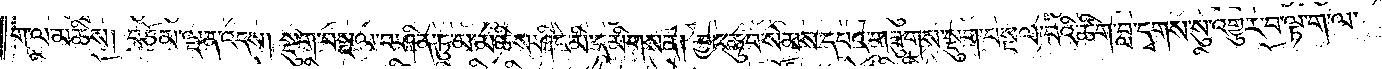ག་ལ་མཆིས། བཅོམ་ལྡན་འདས། སྡུག་བསྔལ་བ་ཤིན་ཏུ་མ་མཆིས་ཤིང་མི་དམིགས་ན། བྱང་ཆུབ་སེམས་དཔའ་གཟུགས་སྡུག་བསྔལ་བའི་ཚིག་བླ་དྭགས་སུ་འགྱུར་པ་ལྟ་ག་ལ་
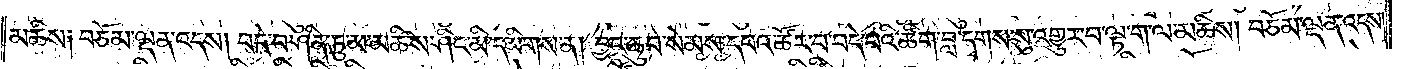མཆིས༑ བཅོམ་ལྡན་འདས། བདེ་བ་ཤིན་ཏུ་མ་མཆིས་ཤིང་མི་དམིགས་ན། བྱང་ཆུབ་སེམས་དཔའ་ཚོར་བ་བདེ་བའི་ཚིག་བླ་དྭགས་སུ་འགྱུར་བ་ལྟ་ག་ལ་མཆིས། བཅོམ་ལྡན་འདས།
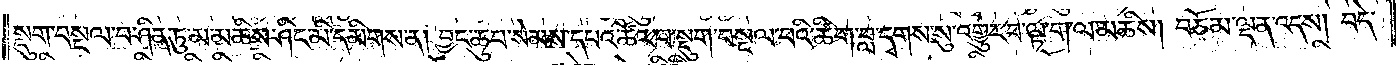སྡུག་བསྔལ་བ་ཤིན་ཏུ་མ་མཆིས་ཤིང་མི་དམིགས་ན། བྱང་ཆུབ་སེམས་དཔའ་ཚོར་བ་སྡུག་བསྔལ་བའི་ཚིག་བླ་དྭགས་སུ་འགྱུར་བ་ལྟ་ག་ལ་མཆིས། བཅོམ་ལྡན་འདས། བདེ་
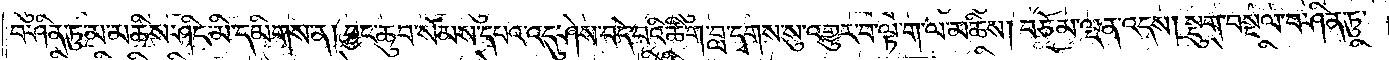བ་ཤིན་ཏུ་མ་མཆིས་ཤིང་མི་དམིགས་ན། བྱང་ཆུབ་སེམས་དཔའ་འདུ་ཤེས་བདེ་བའི་ཚིག་བླ་དྭགས་སུ་འགྱུར་བ་ལྟ་ག་ལ་མཆིས། བཅོམ་ལྡན་འདས། སྡུག་བསྔལ་བ་ཤིན་ཏུ་
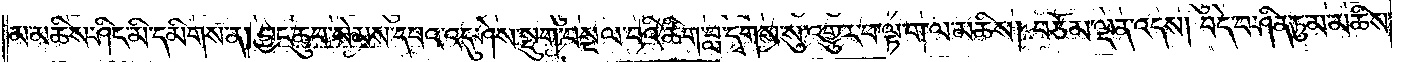མ་མཆིས་ཤིང་མི་དམིགས་ན། བྱང་ཆུབ་སེམས་དཔའ་འདུ་ཤེས་སྡུག་བསྔལ་བའི་ཚིག་བླ་དྭགས་སུ་འགྱུར་བ་ལྟ་ག་ལ་མཆིས། བཅོམ་ལྡན་འདས། བདེ་བ་ཤིན་ཏུ་མ་མཆིས་
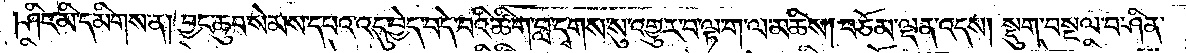ཤིང་མི་དམིགས་ན། བྱང་ཆུབ་སེམས་དཔའ་འདུ་བྱེད་བདེ་བའི་ཚིག་བླ་དྭགས་སུ་འགྱུར་བ་ལྟ་ག་ལ་མཆིས། བཅོམ་ལྡན་འདས། སྡུག་བསྔལ་བ་ཤིན་
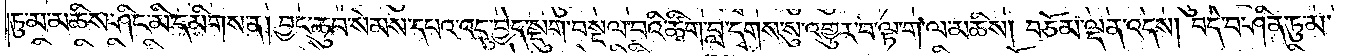ཏུ་མ་མཆིས་ཤིང་མི་དམིགས་ན། བྱང་ཆུབ་སེམས་དཔའ་འདུ་བྱེད་སྡུག་བསྔལ་བའི་ཚིག་བླ་དྭགས་སུ་འགྱུར་པ་ལྟ་ག་ལ་མཆིས། བཅོམ་ལྡན་འདས། བདེ་བ་ཤིན་ཏུ་མ་
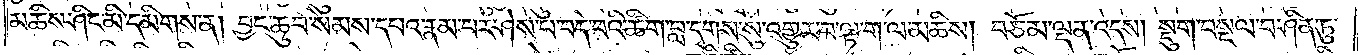མཆིས་ཤིང་མི་དམིགས་ན། བྱང་ཆུབ་སེམས་དཔའ་རྣམ་པར་ཤེས་པ་བདེ་བའི་ཚིག་བླ་དགས་སུ་འགྱུར་བ་ལྟ་ག་ལ་མཆིས། བཅོམ་ལྡན་འདས། སྡུག་བསྔལ་བ་ཤིན་ཏུ་
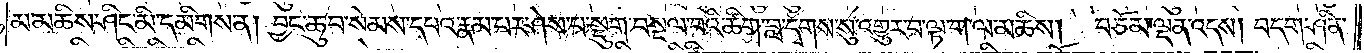མ་མཆིས་ཤིང་མི་དམིགས་ན། བྱང་ཆུབ་སེམས་དཔའ་རྣམ་པར་ཤེས་པ་སྡུག་བསྔལ་བའི་ཚིག་བླ་དྭགས་སུ་འགྱུར་བ་ལྟ་ག་ལ་མཆིས། བཅོམ་ལྡན་འདས། བདག་ཤིན་
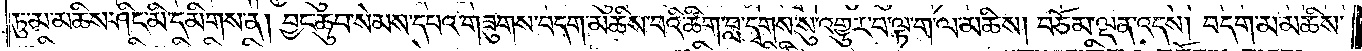ཏུ་མ་མཆིས་ཤིང་མི་དམིགས་ན། བྱང་ཆུབ་སེམས་དཔའ་གཟུགས་བདག་མཆིས་བའི་ཚིག་བླ་དྭགས་སུ་འགྱུར་བ་ལྟ་ག་ལ་མཆིས། བཅོམ་ལྡན་འདས། བདག་མ་མཆིས་
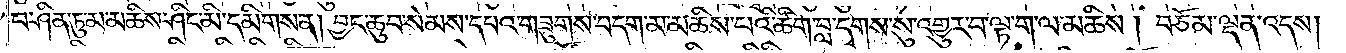པ་ཤིན་ཏུ་མ་མཆིས་ཤིང་མི་དམིགས་ན། བྱང་ཆུབ་སེམས་དཔའ་གཟུགས་བདག་མ་མཆིས་པའི་ཚིག་བླ་དྭགས་སུ་འགྱུར་བ་ལྟ་ག་ལ་མཆིས། བཅོམ་ལྡན་འདས།
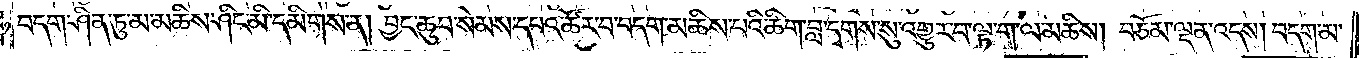བདག་ཤིན་ཏུ་མ་མཆིས་ཤིང་མི་དམིགས་ན། བྱང་ཆུབ་སེམས་དཔའ་ཚོར་བ་བདག་མཆིས་པའི་ཚིག་བླ་དྭགས་སུ་འགྱུར་བ་ལྟ་ག་ལ་མཆིས། བཅོམ་ལྡན་འདས། བདག་མ་
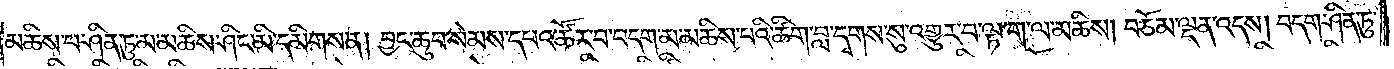མཆིས་པ་ཤིན་ཏུ་མ་མཆིས་ཤིང་མི་དམིགས་ན། བྱང་ཆུབ་སེམས་དཔའ་ཚོར་བ་བདག་མ་མཆིས་པའི་ཚིག་བླ་དྭགས་སུ་འགྱུར་བ་ལྟ་ག་ལ་མཆིས། བཅོམ་ལྡན་འདས། བདག་ཤིན་ཏུ་
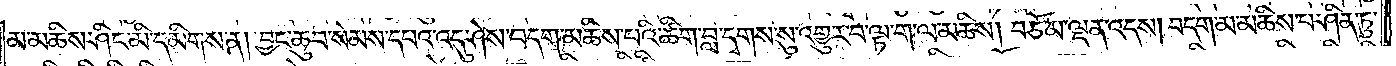མ་མཆིས་ཤིང་མི་དམིགས་ན། བྱང་ཆུབ་སེམས་དཔའ་འདུ་ཤེས་བདག་མཆིས་པའི་ཚིག་བླ་དྭགས་སུ་འགྱུར་བ་ལྟ་ག་ལ་མཆིས། བཅོམ་ལྡན་འདས། བདག་མ་མཆིས་པ་ཤིན་ཏུ་
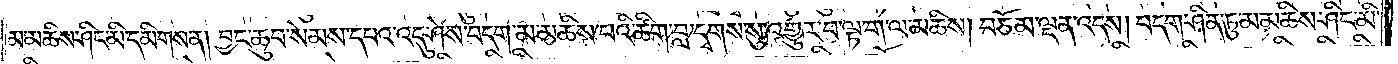མ་མཆིས་ཤིང་མི་དམིགས་ན། བྱང་ཆུབ་སེམས་དཔའ་འདུ་ཤེས་བདག་མ་མཆིས་པའི་ཚིག་བླ་དྭགས་སུ་འགྱུར་བ་ལྟ་ག་ལ་མཆིས། བཅོམ་ལྡན་འདས། བདག་ཤིན་ཏུ་མ་མཆིས་ཤིང་མི་
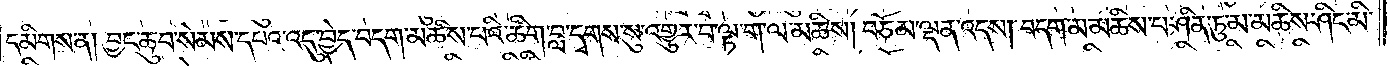དམིགས་ན། བྱང་ཆུབ་སེམས་དཔའ་འདུ་བྱེད་བདག་མཆིས་པའི་ཚིག་བླ་དྭགས་སུ་འགྱུར་བ་ལྟ་ག་ལ་མཆིས། བཅོམ་ལྡན་འདས། བདག་མ་མཆིས་པ་ཤིན་ཏུ་མ་མཆིས་ཤིང་མི་
